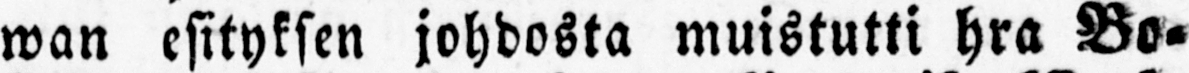wan esityksen johdosta muistutti hra Bo-
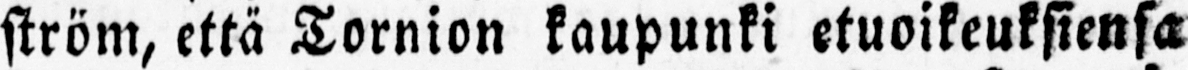ström, että Tornion kaupunki etuoikeuksiensa
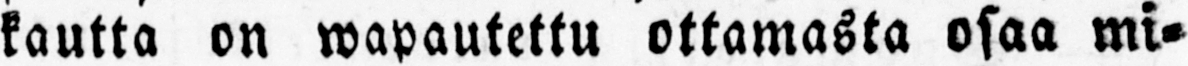kautta on wapautettu ottamasta osaa mi-
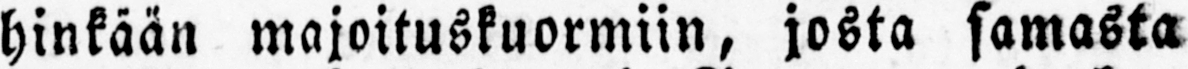hinkään majoituskuormiin, josta samasta
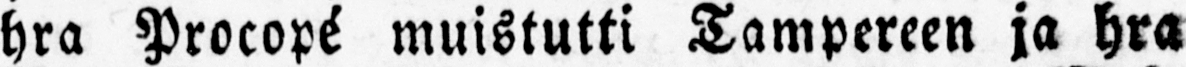hra Procopé muistutti Tampereen ja hra
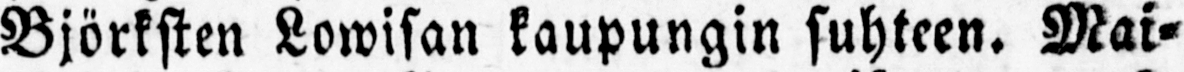Björksten Lowisan kaupungin suhteen. Mai-
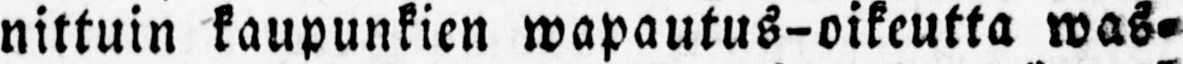nittuin kaupunkien wapautus-oikeutta was-
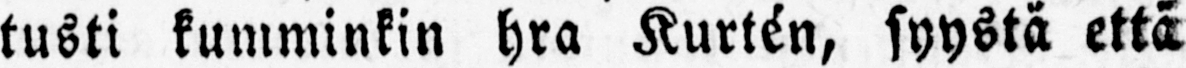tusti kumminkin hra Kurtén, syystä että
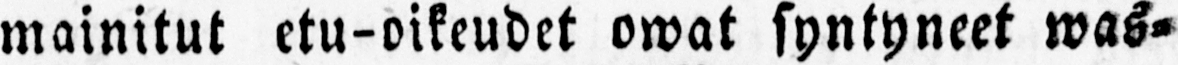mainitut etu-oikeudet owat syntyneet was-
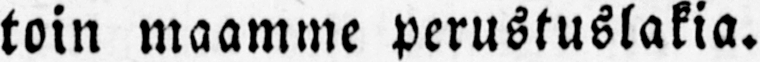toin maamme perustuslakia.
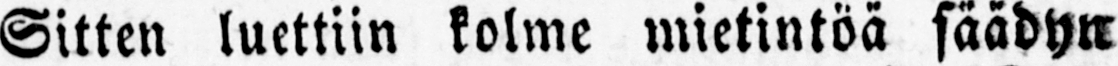Sitten luettiin kolme mietintöä säädyn
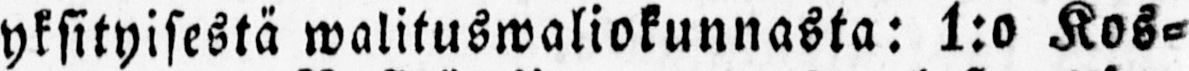yksityisestä walituswaliokunnasta: 1:o Kos-
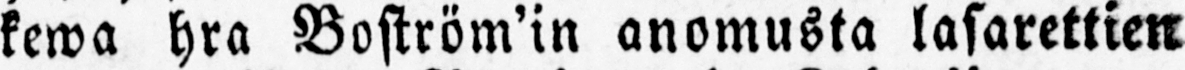kewa hra Boström’in anomusta lasarettien
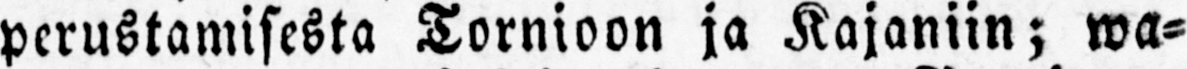perustamisesta Tornioon ja Kajaniin; wa-
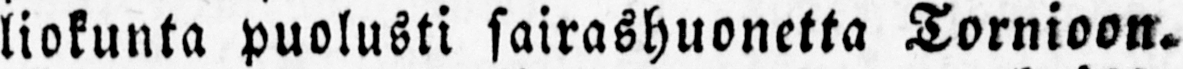liokunta puolusti sairashuonetta Tornioon.
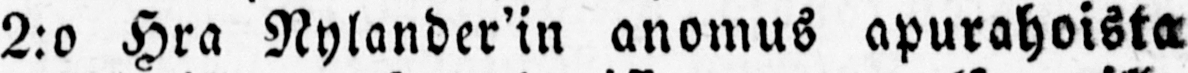2:o Hra Nylander’in anomus apurahoista
